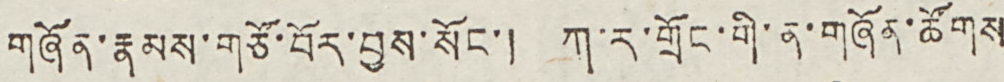གཞོན་རྣམས་གཙོ་བོར་བྱས་སོང་། ཀ་ར་གྲོང་གི་ན་གཞོན་ཚོགས
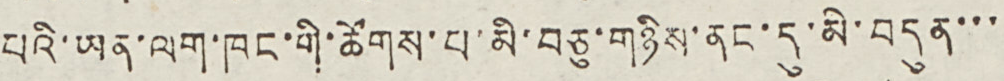པའི་ཡན་ལག་ཁང་གི་ཚོགས་པ་མི་བཅུ་གཉིས་ནང་དུ་མི་བདུན་་་
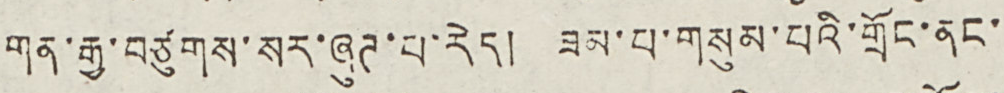གན་རྒྱ་བཙུགས་སར་ཞུཊ་པ་རེད། ཟམ་པ་གསུམ་པའི་གྲོང་ནང་
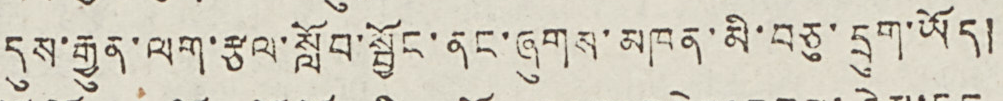དུས་རྒྱུན་ལག་རྩལ་སློབ་སྦྱོང་ནང་ཞུགས་མཁན་མི་བཅུ་དྲུག་ཡོད།
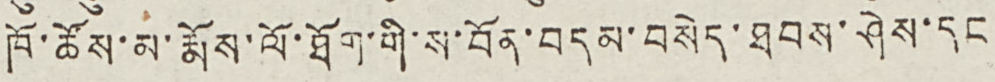ཁོ་ཚོས་མ་རྨོས་ལོ་ཐོག་གི་ས་བོན་བདམ་བསེད་ཐབས་ཤེས་དང
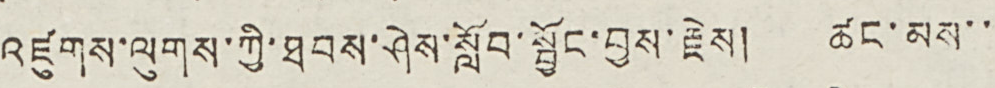འཛུགས་ལུགས་ཀྱི་ཐབས་ཤེས་སློབ་སྦྱོང་བྱས་རྗེས། ཚང་མས་་
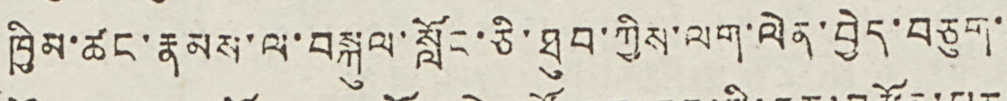ཁྱིམ་ཚང་རྣམས་ལ་བསྐུལ་སློང་ཅི་ཐུབ་ཀྱིས་ལག་ལེན་བྱེད་བཅུག་
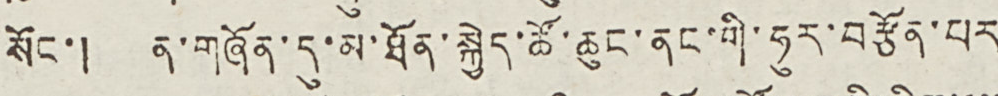སོང་། ན་གཞོན་དུ་མ་ཐོན་སྐྱེད་ཚོ་ཆུང་ནང་གི་ཧུར་བརྩོན་པར
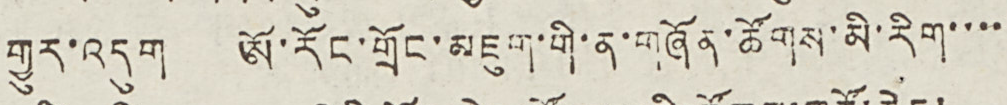གྱུར་འདུག ཨོ་རོང་གྲོང་མཇུག་གི་ན་གཞོན་ཚོགས་མི་རིག་་་་
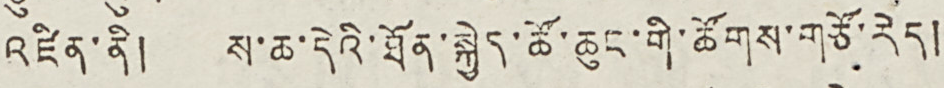འཛིན་ནི། ས་ཆ་དེའི་ཐོན་སྐྱེད་ཚོ་ཆུང་གི་ཚོགས་གཙོ་རེད།
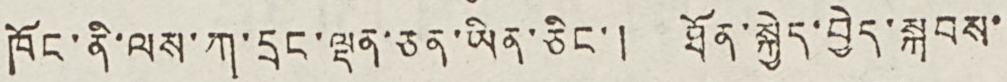ཁོང་ནི་ལས་ཀ་དྲང་ལྡན་ཅན་ཡིན་ཅིང་། ཐོན་སྐྱེད་བྱེད་སྐབས་
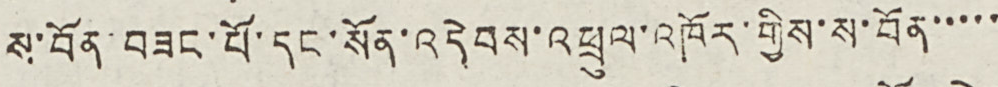ས་བོན་བཟང་པོ་དང་སོན་འདེབས་འཕྲུལ་འཁོར་གྱིས་ས་བོན་་་་་
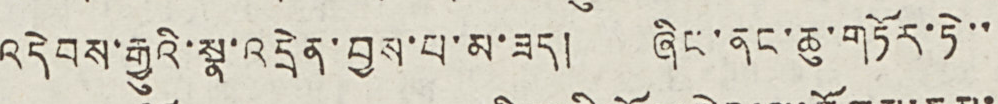འདེབས་རྒྱུའི་སྣ་འདྲེན་བྱས་པ་མ་ཟད། ཞིང་ནང་ཆུ་གཏོར་ཏེ་་
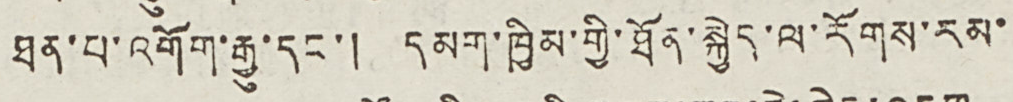ཐན་པ་འགོག་རྒྱུ་དང་། དམག་ཁྱིམ་གྱི་ཐོན་སྐྱེད་ལ་རོགས་རམ་
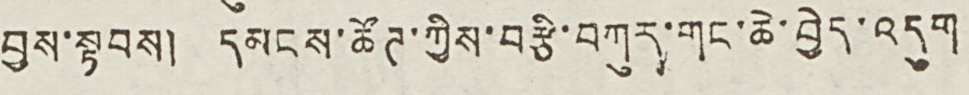བྱས་སྟབས། དམངས་ཚོཊ་ཀྱིས་བརྩི་བཀུར་གང་ཆེ་བྱེད་འདུག
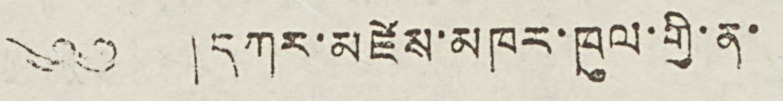༄༅ །དཀར་མཛེས་མཁར་ཁུལ་གྱི་ན་
